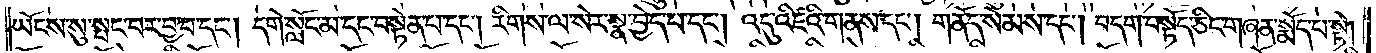ཡོངས་སུ་སྤང་བར་བྱ་བ་དང༌། དགེ་སློང་མ་དང་བསྟེན་པ་དང༌། རིགས་ལ་སེར་སྣ་བྱེད་པ་དང༌། འདུ་འཛིའི་གནས་དང༌། གནོད་སེམས་དང༌། བདག་བསྟོད་ཅིང་གཞན་སྨོད་པ་སྟེ།
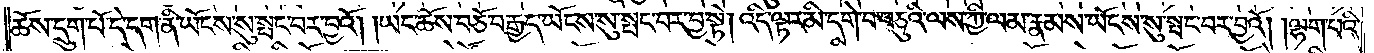ཆོས་དྲུག་པོ་དེ་དག་ནི་ཡོངས་སུ་སྤང་བར་བྱའོ། །ཡང་ཆོས་བཅོ་བརྒྱད་ཡོངས་སུ་སྤང་བར་བྱ་སྟེ། འདི་ལྟར་མི་དགེ་བ་བཅུའི་ལས་ཀྱི་ལམ་རྣམས་ཡོངས་སུ་སྤང་བར་བྱའོ། །ལྷག་པའི་
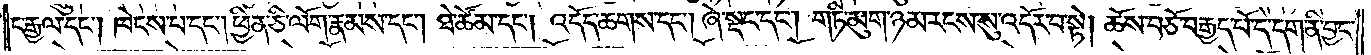ང་རྒྱལ་དང༌། ཁེངས་པ་དང༌། ཕྱིན་ཅི་ལོག་རྣམས་དང༌། ཐེ་ཚོམ་དང༌། འདོད་ཆགས་དང༌། ཞེ་སྡང་དང༌། གཏི་མུག་ཉམ་རངས་སུ་འདོར་བ་སྟེ། ཆོས་བཅོ་བརྒྱད་པོ་དེ་དག་ནི་བྱང་
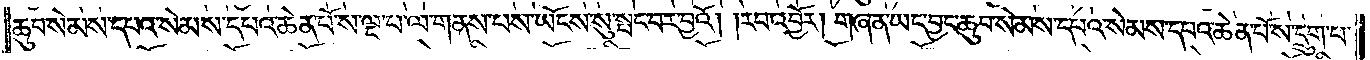ཆུབ་སེམས་དཔའ་སེམས་དཔའ་ཆེན་པོ་ས་ལྔ་པ་ལ་གནས་པས་ཡོངས་སུ་སྤང་བར་བྱའོ། །རབ་འབྱོར། གཞན་ཡང་བྱང་ཆུབ་སེམས་དཔའ་སེམས་དཔའ་ཆེན་པོ་ས་དྲུག་པ་
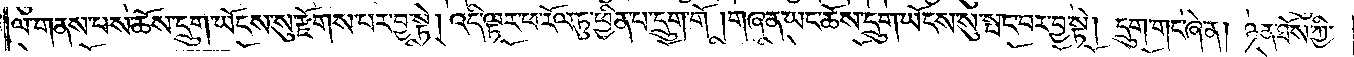ལ་གནས་པས་ཆོས་དྲུག་ཡོངས་སུ་རྫོགས་པར་བྱ་སྟེ། འདི་ལྟར་ཕ་རོལ་ཏུ་ཕྱིན་པ་དྲུག་གོ །གཞན་ཡང་ཆོས་དྲུག་ཡོངས་སུ་སྤང་བར་བྱ་སྟེ། དྲུག་གང་ཞེ་ན། ཉན་ཐོས་ཀྱི་
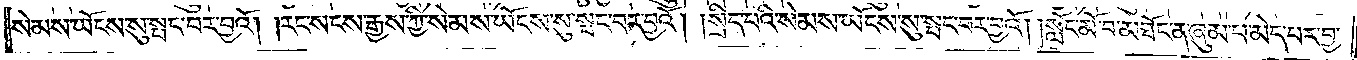སེམས་ཡོངས་སུ་སྤང་བར་བྱའོ། །རང་སངས་རྒྱས་ཀྱི་སེམས་ཡོངས་སུ་སྤང་བར་བྱའོ། །སྲིད་པའི་སེམས་ཡོངས་སུ་སྤང་བར་བྱའོ། །སློང་མོ་པ་མཐོང་ན་ཞུམ་པ་མེད་པར་བྱ་
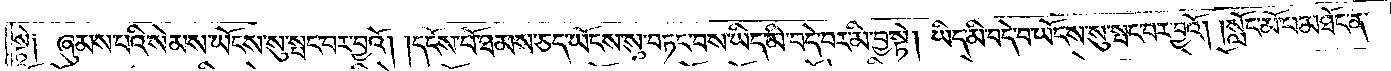སྟེ། ཞུམ་པའི་སེམས་ཡོངས་སུ་སྤང་བར་བྱའོ། །དངོས་པོ་ཐམས་ཅད་ཡོངས་སུ་བཏང་བས་ཡིད་མི་བདེ་བར་མི་བྱ་སྟེ། ཡིད་མི་བདེ་བ་ཡོངས་སུ་སྤང་བར་བྱའོ། །སློང་མོ་པ་མཐོང་ན་
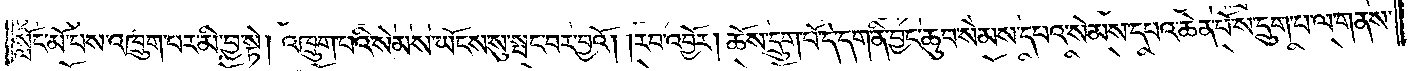སློང་མོ་པས་འཁྲུག་པར་མི་བྱ་སྟེ། འཁྲུག་པའི་སེམས་ཡོངས་སུ་སྤང་བར་བྱའོ། །རབ་འབྱོར། ཆོས་དྲུག་པོ་དེ་དག་ནི་བྱང་ཆུབ་སེམས་དཔའ་སེམས་དཔའ་ཆེན་པོ་ས་དྲུག་པ་ལ་གནས་
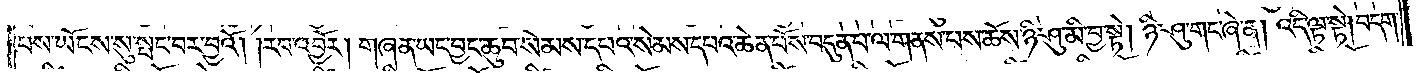པས་ཡོངས་སུ་སྤང་བར་བྱའོ། །རབ་འབྱོར། གཞན་ཡང་བྱང་ཆུབ་སེམས་དཔའ་སེམས་དཔའ་ཆེན་པོ་ས་བདུན་པ་ལ་གནས་པས་ཆོས་ཉི་ཤུ་མི་བྱ་སྟེ། ཉི་ཤུ་གང་ཞེ་ན། འདི་ལྟ་སྟེ། བདག་
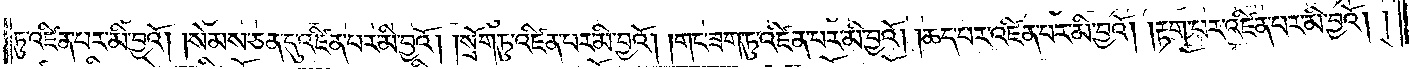ཏུ་འཛིན་པར་མི་བྱའོ། །སེམས་ཅན་དུ་འཛིན་པར་མི་བྱའོ། །སྲོག་ཏུ་འཛིན་པར་མི་བྱའོ། །གང་ཟག་ཏུ་འཛིན་པར་མི་བྱའོ། །ཆད་པར་འཛིན་པར་མི་བྱའོ། །རྟག་པར་འཛིན་པར་མི་བྱའོ། །
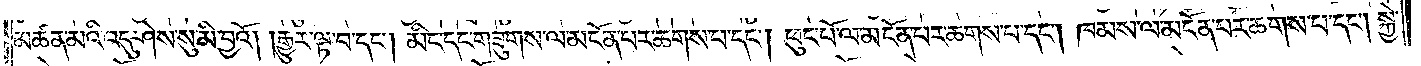མཚན་མའི་འདུ་ཤེས་སུ་མི་བྱའོ། །རྒྱུར་ལྟ་བ་དང༌། མིང་དང་གཟུགས་ལ་མངོན་པར་ཆགས་པ་དང༌། ཕུང་པོ་ལ་མངོན་པར་ཆགས་པ་དང༌། ཁམས་ལ་མངོན་པར་ཆགས་པ་དང༌། སྐྱེ་
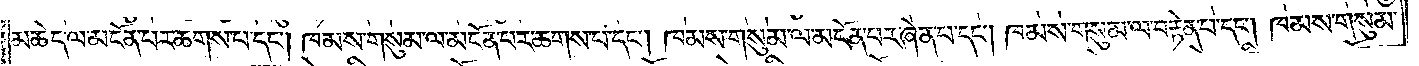མཆེད་ལ་མངོན་པར་ཆགས་པ་དང༌། ཁམས་གསུམ་ལ་མངོན་པར་ཆགས་པ་དང༌། ཁམས་གསུམ་ལ་མངོན་པར་ཞེན་པ་དང༌། ཁམས་གསུམ་ལ་བརྟེན་པ་དང༌། ཁམས་གསུམ་
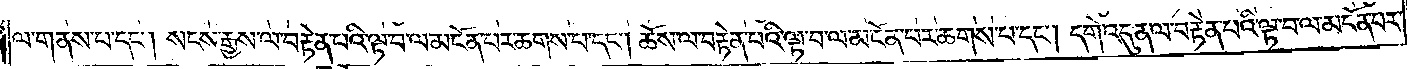ལ་གནས་པ་དང༌། སངས་རྒྱས་ལ་བརྟེན་པའི་ལྟ་བ་ལ་མངོན་པར་ཆགས་པ་དང༌། ཆོས་ལ་བརྟེན་པའི་ལྟ་བ་ལ་མངོན་པར་ཆགས་པ་དང༌། དགེ་འདུན་ལ་བརྟེན་པའི་ལྟ་བ་ལ་མངོན་པར་
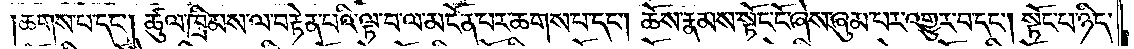ཆགས་པ་དང༌། ཚུལ་ཁྲིམས་ལ་བརྟེན་པའི་ལྟ་བ་ལ་མངོན་པར་ཆགས་པ་དང༌། ཆོས་རྣམས་སྟོང་ངོ་ཞེས་ཞུམ་པར་འགྱུར་བ་དང༌། སྟོང་པ་ཉིད་
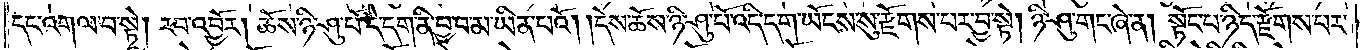དང་འགལ་བ་སྟེ། རབ་འབྱོར། ཆོས་ཉི་ཤུ་པོ་དེ་དག་ནི་བྱ་བ་མ་ཡིན་པའོ། །དེས་ཆོས་ཉི་ཤུ་པོ་འདི་དག་ཡོངས་སུ་རྫོགས་པར་བྱ་སྟེ། ཉི་ཤུ་གང་ཞེ་ན། སྟོང་པ་ཉིད་རྫོགས་པར་
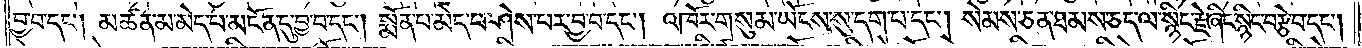བྱ་བ་དང༌། མཚན་མ་མེད་པ་མངོན་དུ་བྱ་བ་དང༌། སྨོན་པ་མེད་པ་ཤེས་པར་བྱ་བ་དང༌། འཁོར་གསུམ་ཡོངས་སུ་དག་པ་དང༌། སེམས་ཅན་ཐམས་ཅད་ལ་སྙིང་རྗེ་ཞིང་སྙིང་བརྩེ་བ་དང༌།
